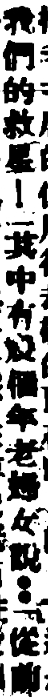我們的救星！」其中有幾個年老婦女說：「從前
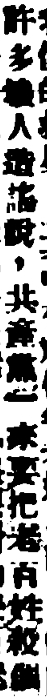許多壞人造謠說，共產黨一來要把老百姓殺個
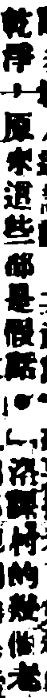乾淨，原來這些都是假話。」洛課村的幾個老
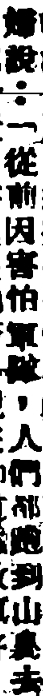婦說：「從前因害怕軍隊，人們都跑到山裏去
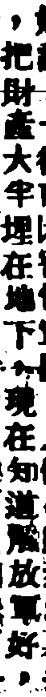，把財產大半埋在地下，現在知道解放軍好，
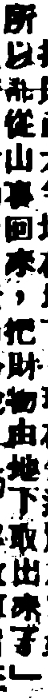所以都從山裏回來，把財物由地下取出來了」
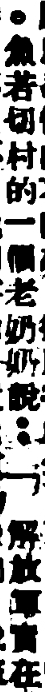。魚若切村的一個老奶奶說：「解放軍實在
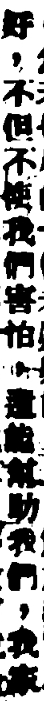好，不但不使我們害怕，還能幫助我們，我家
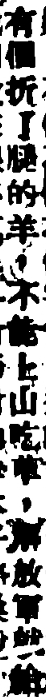有個折了腿的羊，不能上山吃草，解放軍就給
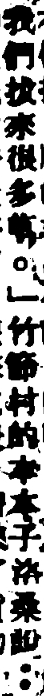我們拔來很多草。」竹節村的本本子洛桑說：
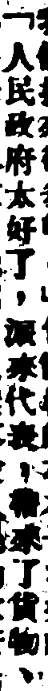「人民政府太好了，派來代表，帶來了貨物、
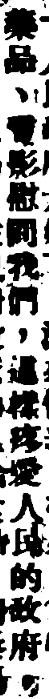藥品、電影慰問我們，這樣疼愛人民的政府，
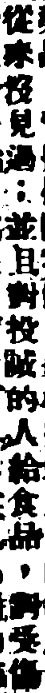從來沒見過；並且對投誠的人給食品，對受傷
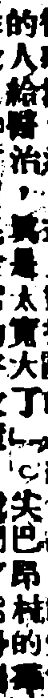的人給醫治，眞是太寬大了」。尖巴昂村的羣
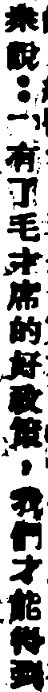衆說：「有了毛主席的好政策，我們才能得到
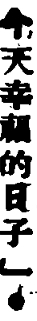今天幸福的日子」。
